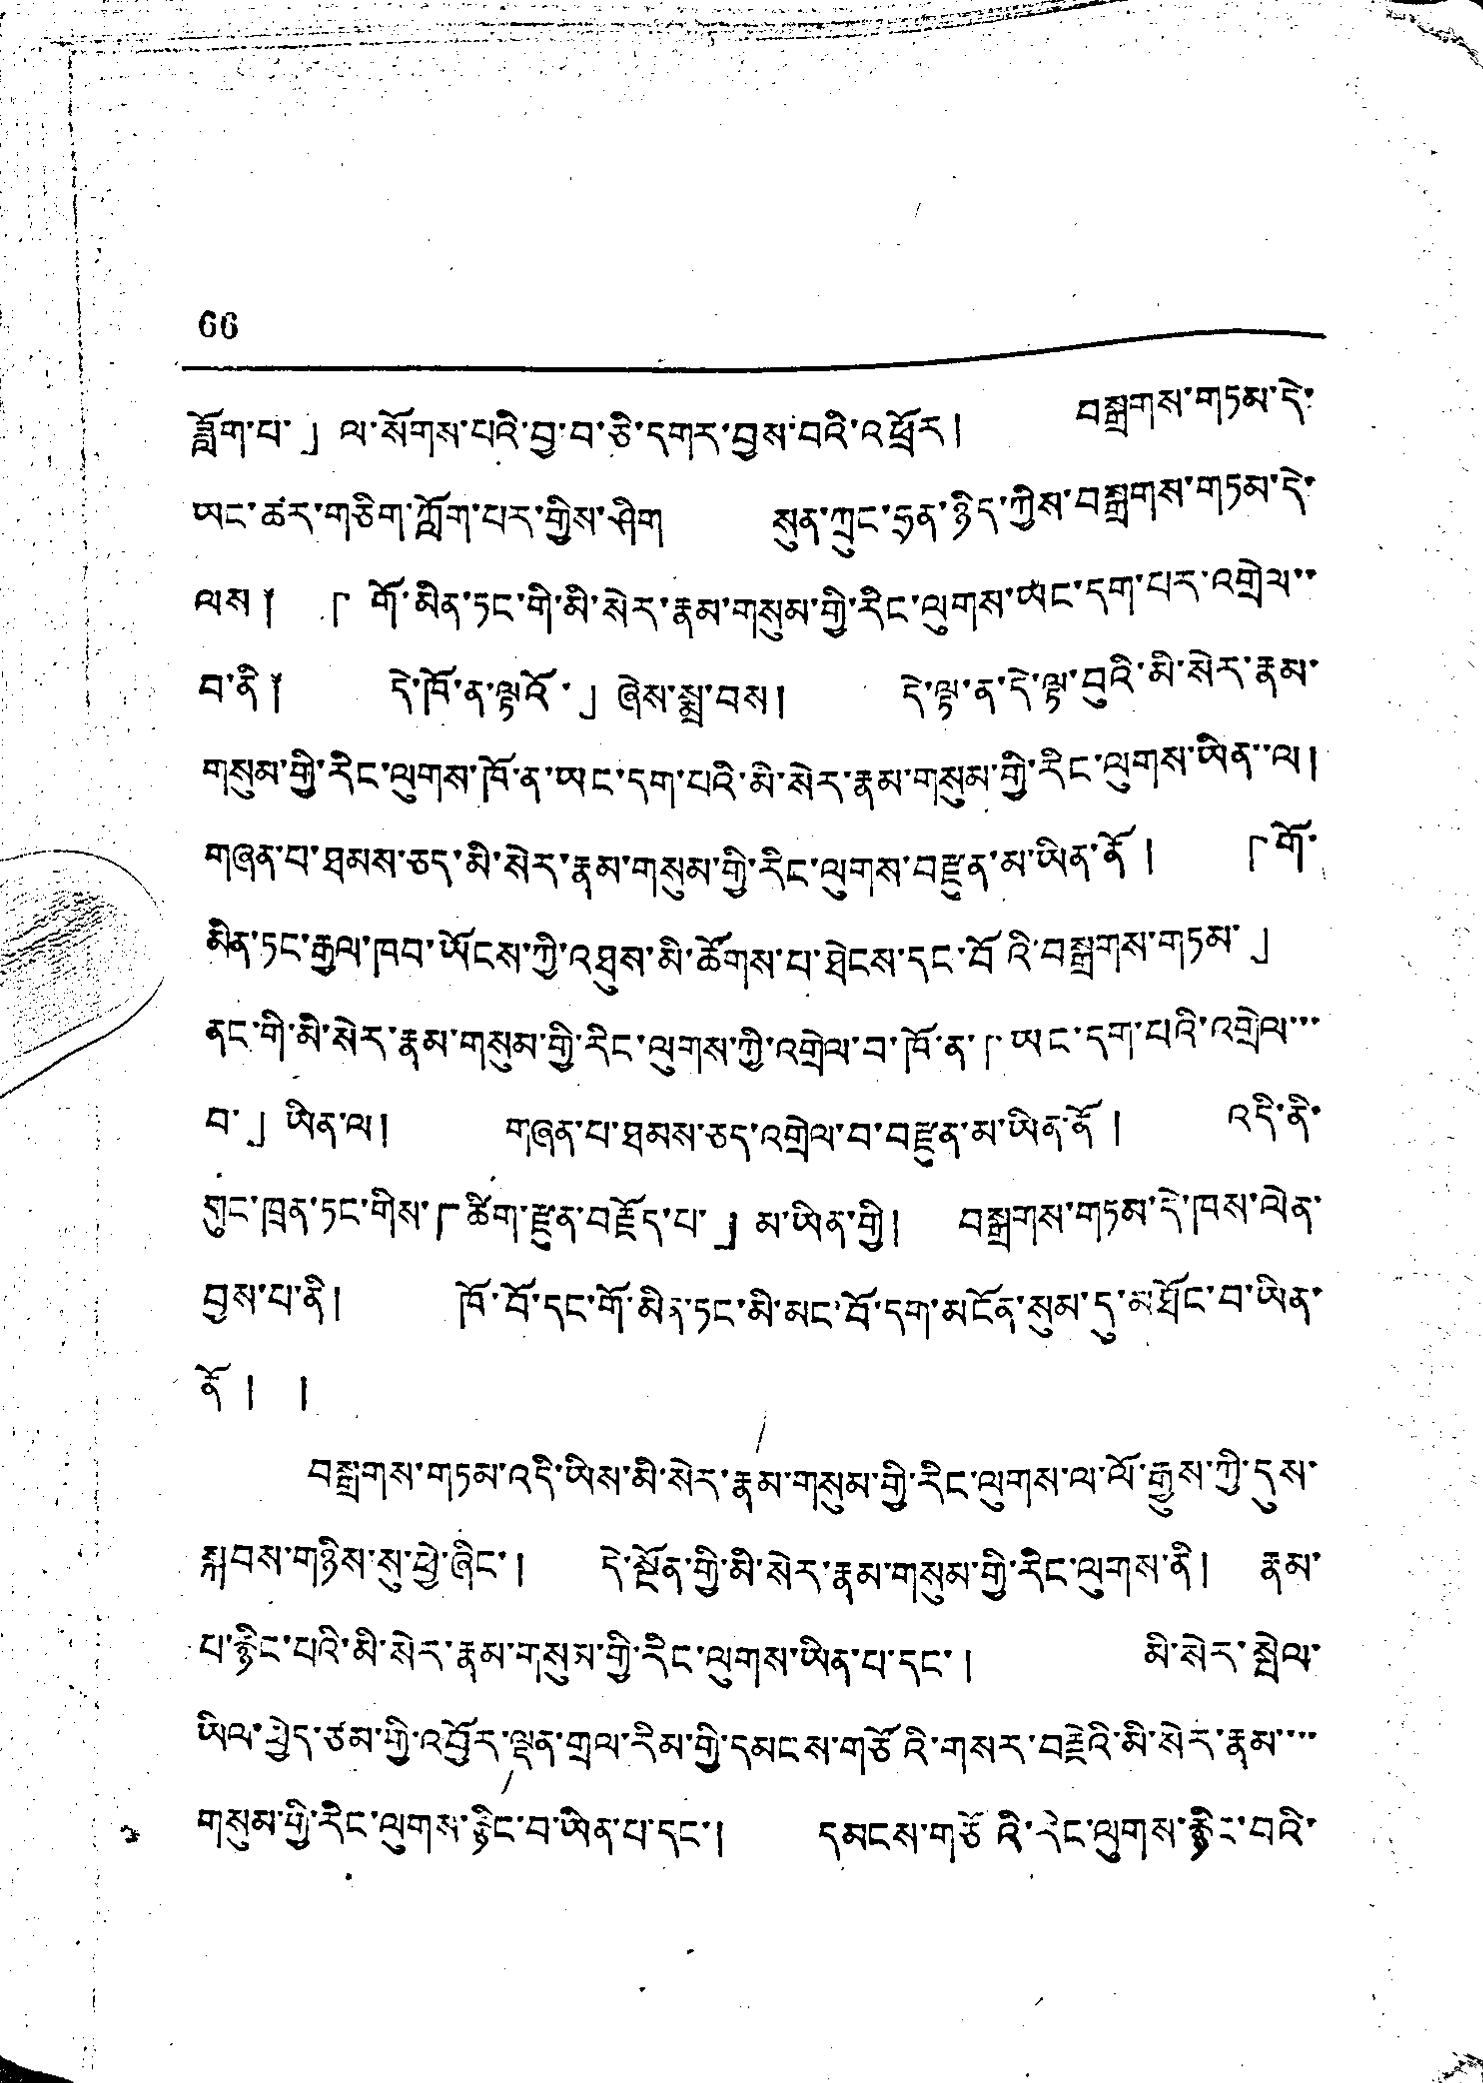66
ཟློག་པ་」ལ་སོགས་པའི་བྱ་བ་ཅེ་དགར་བྱས་བའི་འཕྲོར། བསྒྲགས་གཏམ་དེ་
ཡང་ཚར་གཅིག་ཀློག་པར་གྱིས་ཤིག སུན་ཀྲུང་ཧྲན་ཉིད་ཀྱིས་བསྒྲགས་གཏམ་དེ་
ལས ༐ 「གོ་མིན་ཏང་གི་མི་སེར་རྣམ་གསུམ་གྱི་རིང་ལུགས་ཡང་དག་པར་འགྲེས་་
བ་ནི༐ དེ་ཁོ་ན་ལྟའོ་」ཞེས་སྨྲ་བས། དེ་ལྟ་ན་དེ་ལྟ་བུའི་མི་སེར་རྣམ་
གསུམ་གྱི་རིང་ལུགས་ཁོ་ན་ཡང་དག་པའི་མི་སེར་རྣམ་གསུམ་གྱི་རིང་ལུགས་ཡིན་་ལ།
གཞན་པ་ཐམས་ཅད་མི་སེར་རྣམ་གསུམ་གྱི་རིང་ལུགས་བརྫུན་མ་ཡིན་ནོ ། 「གོ་
མིན་ཏང་རྒྱལ་ཁབ་ཡོངས་ཀྱི་འཐུས་མི་ཚོགས་པ་ཐེངས་དང་བོའི་བསྒྲགས་གཏམ་」
ནང་གི་མི་སེར་རྣམ་གསུམ་གྱི་རིང་ལུགས་ཀྱི་འགྲེལ་བ་ཁོ་ན་「ཡང་དག་པའི་འགྲེལ་་་
བ་」ཡིན་ལ། གཞན་པ་ཐམས་ཅད་འགྲེལ་བ་བརྫུན་མ་ཡིན་ནོ ། འདི་ནི་
གུང་ཁྲན་ཏང་གིས་「ཚིག་རྫུན་བརྗོད་པ་」མ་ཡིན་གྱི། བསྒྲགས་གཏམ་དེ་ཁས་ལེན་
བྱས་པ་ནི། ཁོ་བོ་དང་གོ་མིན་ཏང་མི་མང་བོ་དག་མངོན་སུམ་དུ་མཐོང་བ་ཡིན་
ནོ། །
བསྒྲགས་གཏམ་འདི་ཡིས་མི་སེར་རྣམ་གསུམ་གྱི་རིང་ལུགས་ལ་ལོ་རྒྱུས་ཀྱི་དུས་
སྐབས་གཉིས་སུ་ཕྱེ་ཞིང་། དེ་སྔོན་གྱི་མི་སེར་རྣམ་གསུམ་གྱི་རིང་ལུགས་ནོ། རྣམ་
པ་རྙིང་པའི་མི་སེར་རྣམ་གསུལ་གྱི་རིང་ལུགས་ཡིན་པ་དང་། མི་སེར་སྤེལ་
ཡིལ་ཕྱེད་ཙམ་གྱི་འབྱོར་ལྡན་གྲལ་རིམ་གྱི་དམངས་གཙོའི་གསར་བརྗེའི་མི་སེར་རྣམ་་་་
གསུམ་གྱི་རིང་ལུགས་རྙིང་བ་ཡིན་པ་དང་། དམངས་གཙོའི་རེང་ལུགས་རྙིང་བའི་
